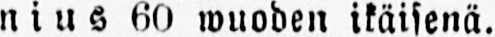nius 60 wuoden ikäisenä.
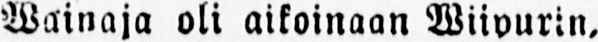Wainaja oli aikoinaan Wiipurin,
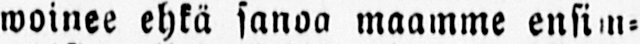woinee ehkä sanoo maamme ensim-
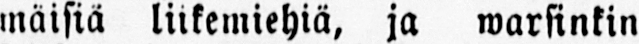mäisiä liikemiehiä, ja warsinkin
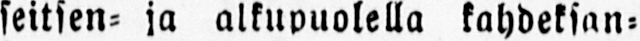seitsen- ja alkupuolella kahdeksan-
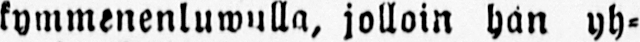kymmenenluwulla, jolloin hän yh-
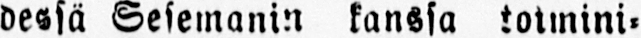dessä Sesemanin kanssa toimini-
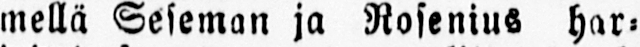mellä Seseman ja Rosenius har-
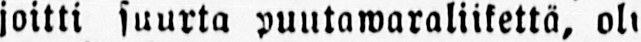joitti suurta puutawaraliikettä, oli
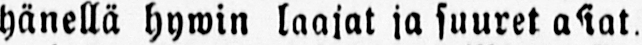hänellä hywin laajat ja suuret asiat,
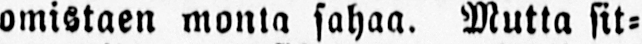omistaen monta sahaa. Mutta sit-
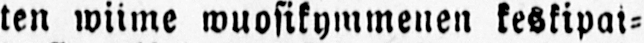ten wiime wuosikyminenen keskipai-
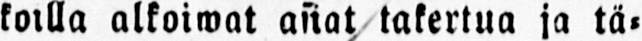koilla alkoiwat asiat takertua ja tä-
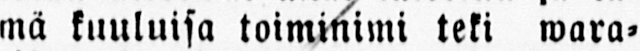mä kuuluisa toiminimi teki wara-
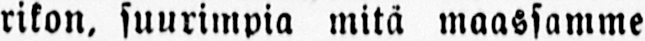rikon, suurimpia mitä maassamme
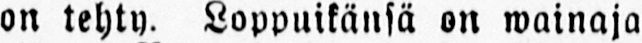on tehty. Loppuikänsä on wainaja
